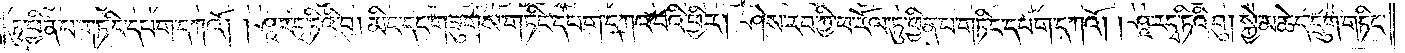ཏུ་ཕྱིན་པ་གཏིང་དཔག་དཀའོ། །ཤཱ་རདྭ་ཏིའི་བུ། མིང་དང་གཟུགས་གཏིང་དཔག་དཀའ་བའི་ཕྱིར། ཤེས་རབ་ཀྱི་ཕ་རོལ་ཏུ་ཕྱིན་པ་གཏིང་དཔག་དཀའོ། །ཤཱ་རདྭ་ཏིའི་བུ། སྐྱེ་མཆེད་དྲུག་གཏིང་
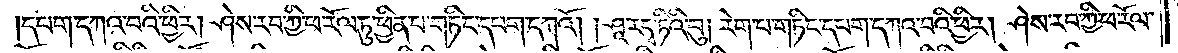དཔག་དཀའ་བའི་ཕྱིར། ཤེས་རབ་ཀྱི་ཕ་རོལ་ཏུ་ཕྱིན་པ་གཏིང་དཔག་དཀའོ། །ཤཱ་རདྭ་ཏིའི་བུ། རེག་པ་གཏིང་དཔག་དཀའ་བའི་ཕྱིར། ཤེས་རབ་ཀྱི་ཕ་རོལ་
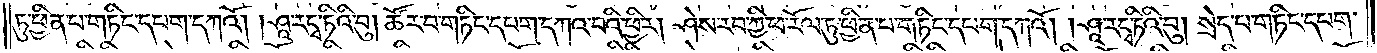ཏུ་ཕྱིན་པ་གཏིང་དཔག་དཀའོ། །ཤཱ་རདྭ་ཏིའི་བུ། ཚོར་བ་གཏིང་དཔག་དཀའ་བའི་ཕྱིར། ཤེས་རབ་ཀྱི་ཕ་རོལ་ཏུ་ཕྱིན་པ་གཏིང་དཔག་དཀའོ། །ཤཱ་རདྭ་ཏིའི་བུ། སྲེད་པ་གཏིང་དཔག་
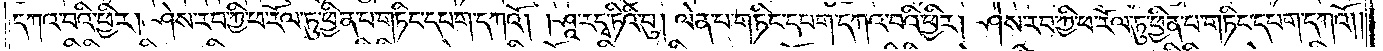དཀའ་བའི་ཕྱིར། ཤེས་རབ་ཀྱི་ཕ་རོལ་ཏུ་ཕྱིན་པ་གཏིང་དཔག་དཀའོ། །ཤཱ་རདྭ་ཏིའི་བུ། ལེན་པ་གཏིང་དཔག་དཀའ་བའི་ཕྱིར། ཤེས་རབ་ཀྱི་ཕ་རོལ་ཏུ་ཕྱིན་པ་གཏིང་དཔག་དཀའོ། །
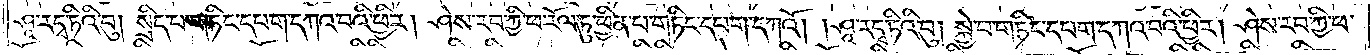ཤཱ་རདྭ་ཏིའི་བུ། སྲིད་པ་གཏིང་དཔག་དཀའ་བའི་ཕྱིར། ཤེས་རབ་ཀྱི་ཕ་རོལ་ཏུ་ཕྱིན་པ་གཏིང་དཔག་དཀའོ། །ཤཱ་རདྭ་ཏིའི་བུ། སྐྱེ་བ་གཏིང་དཔག་དཀའ་བའི་ཕྱིར། ཤེས་རབ་ཀྱི་ཕ་
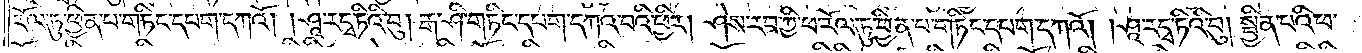རོལ་ཏུ་ཕྱིན་པ་གཏིང་དཔག་དཀའོ། །ཤཱ་རདྭ་ཏིའི་བུ། རྒ་ཤི་གཏིང་དཔག་དཀའ་བའི་ཕྱིར། ཤེས་རབ་ཀྱི་ཕ་རོལ་ཏུ་ཕྱིན་པ་གཏིང་དཔག་དཀའོ། །ཤཱ་རདྭ་ཏིའི་བུ། སྦྱིན་པའི་ཕ་
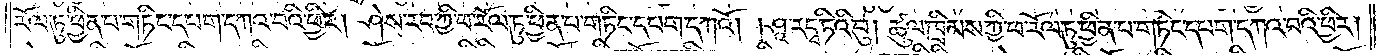རོལ་ཏུ་ཕྱིན་པ་གཏིང་དཔག་དཀའ་བའི་ཕྱིར། ཤེས་རབ་ཀྱི་ཕ་རོལ་ཏུ་ཕྱིན་པ་གཏིང་དཔག་དཀའོ། །ཤཱ་ར་དྭ་ཏིའི་བུ། ཚུལ་ཁྲིམས་ཀྱི་ཕ་རོལ་ཏུ་ཕྱིན་པ་གཏིང་དཔག་དཀའ་བའི་ཕྱིར།
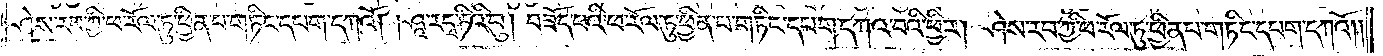ཤེས་རབ་ཀྱི་ཕ་རོལ་ཏུ་ཕྱིན་པ་གཏིང་དཔག་དཀའོ། །ཤཱ་ར་དྭ་ཏིའི་བུ། བཟོད་པའི་ཕ་རོལ་ཏུ་ཕྱིན་པ་གཏིང་དཔག་དཀའ་བའི་ཕྱིར། ཤེས་རབ་ཀྱི་ཕ་རོལ་ཏུ་ཕྱིན་པ་གཏིང་དཔག་དཀའོ། །
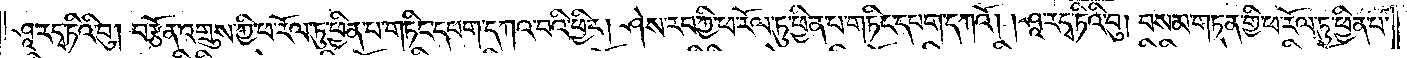ཤཱ་རདྭ་ཏིའི་བུ། བརྩོན་འགྲུས་ཀྱི་ཕ་རོལ་ཏུ་ཕྱིན་པ་གཏིང་དཔག་དཀའ་བའི་ཕྱིར། ཤེས་རབ་ཀྱི་ཕ་རོལ་ཏུ་ཕྱིན་པ་གཏིང་དཔག་དཀའོ། །ཤཱ་རདྭ་ཏིའི་བུ། བསམ་གཏན་གྱི་ཕ་རོལ་ཏུ་ཕྱིན་པ་
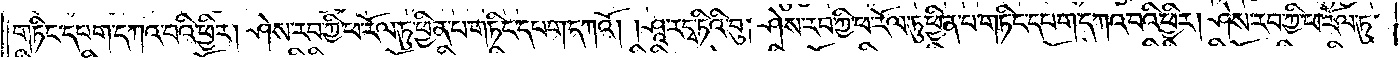གཏིང་དཔག་དཀའ་བའི་ཕྱིར། ཤེས་རབ་ཀྱི་ཕ་རོལ་ཏུ་ཕྱིན་པ་གཏིང་དཔག་དཀའོ། །ཤཱ་རདྭ་ཏིའི་བུ། ཤེས་རབ་ཀྱི་ཕ་རོལ་ཏུ་ཕྱིན་པ་གཏིང་དཔག་དཀའ་བའི་ཕྱིར། ཤེས་རབ་ཀྱི་ཕ་རོལ་ཏུ་
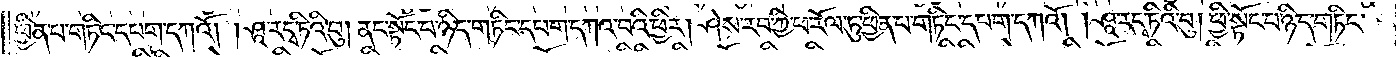ཕྱིན་པ་གཏིང་དཔག་དཀའོ། །ཤཱ་རདྭ་ཏིའི་བུ། ནང་སྟོང་པ་ཉིད་གཏིང་དཔག་དཀའ་བའི་ཕྱིར། ཤེས་རབ་ཀྱི་ཕ་རོལ་ཏུ་ཕྱིན་པ་གཏིང་དཔག་དཀའོ། །ཤཱ་རདྭ་ཏིའི་བུ། ཕྱི་སྟོང་པ་ཉིད་གཏིང་
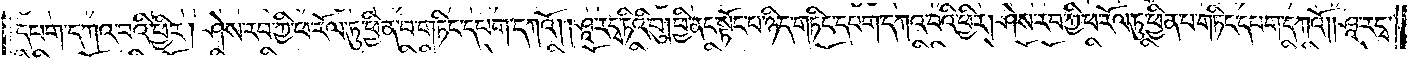དཔག་དཀའ་བའི་ཕྱིར། ཤེས་རབ་ཀྱི་ཕ་རོལ་ཏུ་ཕྱིན་པ་གཏིང་དཔག་དཀའོ། །ཤཱ་རདྭ་ཏིའི་བུ། ཕྱི་ནང་སྟོང་པ་ཉིད་གཏིང་དཔག་དཀའ་བའི་ཕྱིར། ཤེས་རབ་ཀྱི་ཕ་རོལ་ཏུ་ཕྱིན་པ་གཏིང་དཔག་དཀའོ། །ཤཱ་རདྭ་
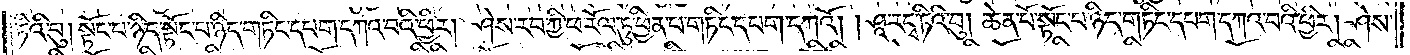ཏིའི་བུ། སྟོང་པ་ཉིད་སྟོང་པ་ཉིད་གཏིང་དཔག་དཀའ་བའི་ཕྱིར། ཤེས་རབ་ཀྱི་ཕ་རོལ་ཏུ་ཕྱིན་པ་གཏིང་དཔག་དཀའོ། །ཤཱ་རདྭ་ཏིའི་བུ། ཆེན་པོ་སྟོང་པ་ཉིད་གཏིང་དཔག་དཀའ་བའི་ཕྱིར། ཤེས་
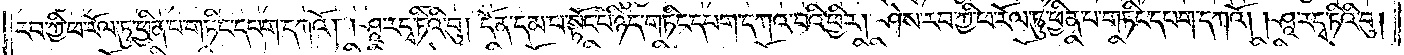རབ་ཀྱི་ཕ་རོལ་ཏུ་ཕྱིན་པ་གཏིང་དཔག་དཀའོ། །ཤཱ་རདྭ་ཏིའི་བུ། དོན་དམ་པ་སྟོང་པ་ཉིད་གཏིང་དཔག་དཀའ་བའི་ཕྱིར། ཤེས་རབ་ཀྱི་ཕ་རོལ་ཏུ་ཕྱིན་པ་གཏིང་དཔག་དཀའོ། །ཤཱ་ར་དྭ་ཏིའི་བུ།
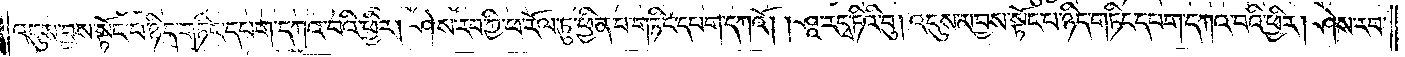འདུས་བྱས་སྟོང་པ་ཉིད་གཏིང་དཔག་དཀའ་བའི་ཕྱིར། ཤེས་རབ་ཀྱི་ཕ་རོལ་ཏུ་ཕྱིན་པ་གཏིང་དཔག་དཀའོ། །ཤཱ་ར་དྭ་ཏིའི་བུ། འདུས་མ་བྱས་སྟོང་པ་ཉིད་གཏིང་དཔག་དཀའ་བའི་ཕྱིར། ཤེས་རབ་
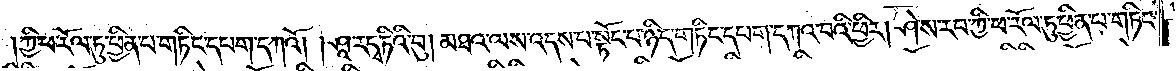ཀྱི་ཕ་རོལ་ཏུ་ཕྱིན་པ་གཏིང་དཔག་དཀའོ། །ཤཱ་ར་དྭ་ཏིའི་བུ། མཐའ་ལས་འདས་པ་སྟོང་པ་ཉིད་གཏིང་དཔག་དཀའ་བའི་ཕྱིར། ཤེས་རབ་ཀྱི་ཕ་རོལ་ཏུ་ཕྱིན་པ་གཏིང་
